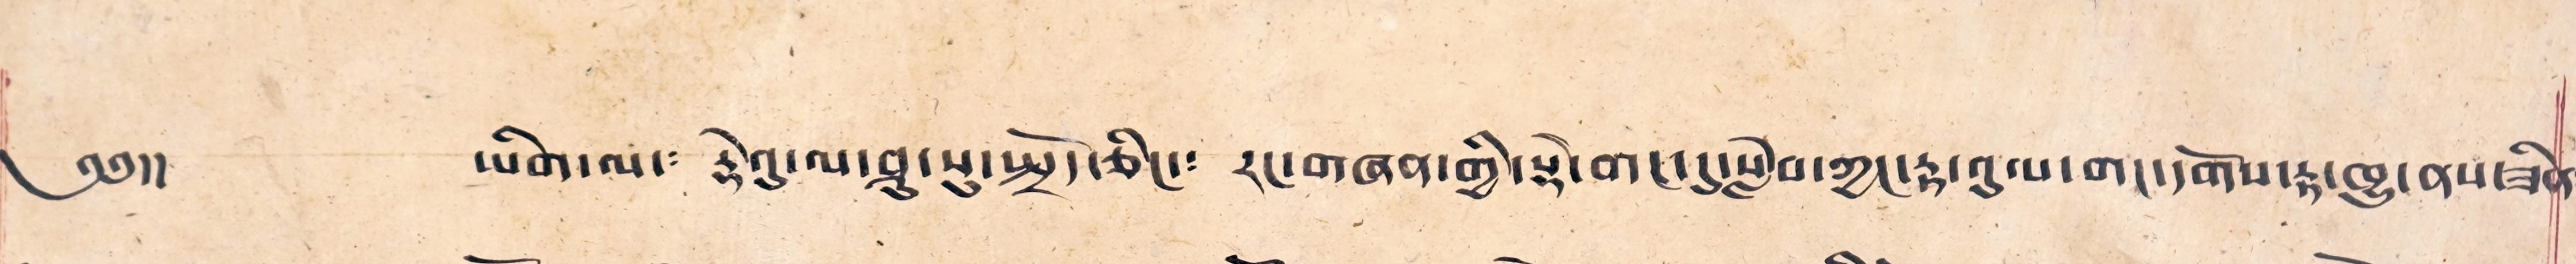༄༅།། ཡིག་ལ་༴ རྡེའུ་ལ་ཤུ་སུ་སྤྲོད་ཅིང་༴ རང་གཞན་གྱི་སྡེ་གང་དུ་སླེབ་ཀྱང་རྟ་འུལ་གང་དགོས་རྟ་ཁྱུ་ནས་ཟིན༴
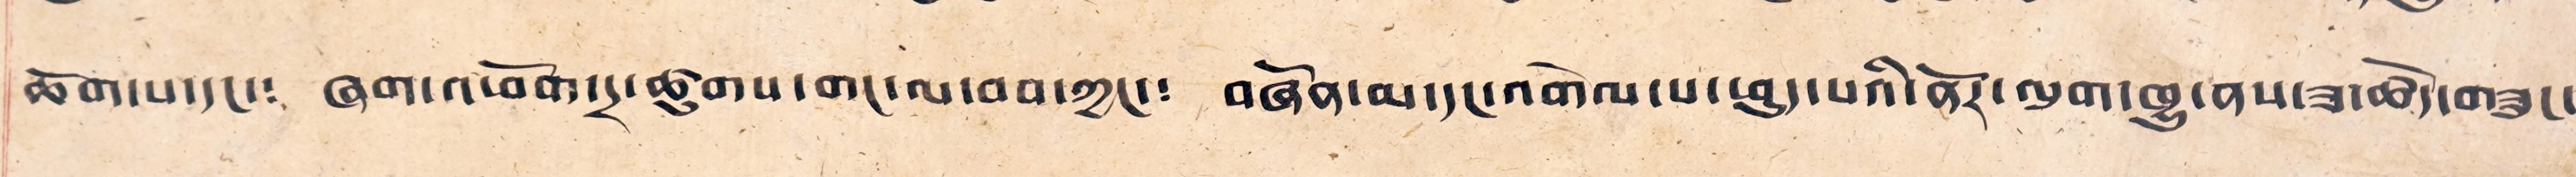ཆོག་པ་དང་༴ ཞག་འཕོག་དྲ་ཚུགས་གང་ལ་བབ་ཀྱང་༴ བཞོན་མ་དང་འགེལ་པ་ཕུད་པའི་ནོར་ལུག་ཁྱུ་ནས་ཟ་ཆོད་བཟུང་
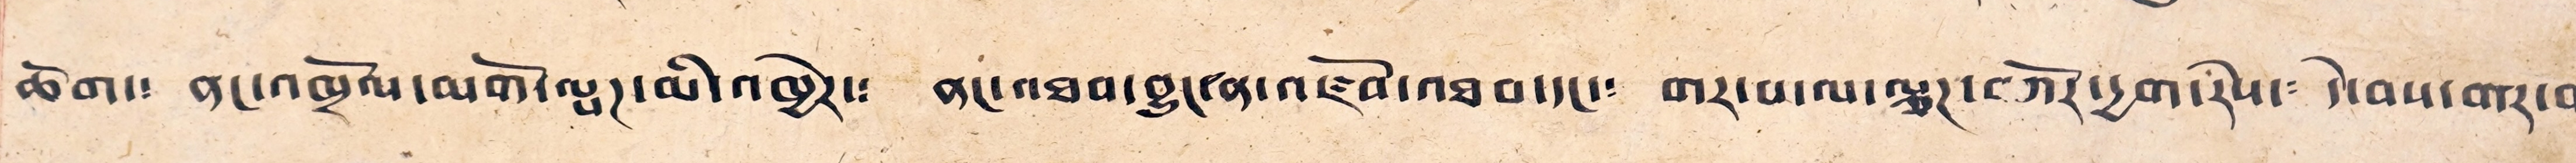ཆོག་༴ ནང་འཁྲོལ་མགོ་ལྤཊ་མི་འཁྱེར་༴ ནང་འཐབ་བྱུང་ན་འཛོབ་འཐབ་དང་༴ གར་པ་ལ་ལྕཊ་བཀོར་དྱག་རེས་༴ དེ་བས་གར་བ༴
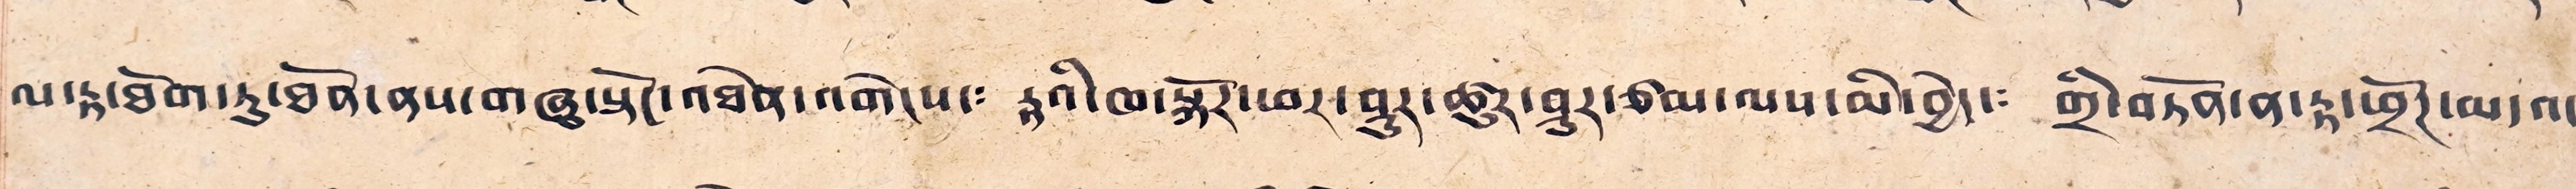ལ་རྟ་ཐོག་ཏུ་ཐོན་ནས་གཞུ་སྟོང་འཐེན་འགེངས་༴ རྟའི་ཁ་སྐོར་ཕར་ཤུར་ཚུར་ཤུར་ཙམ་ལས་མི་བྱེད་༴ གྲི་བཏོན་ན་རྟ་ཕྲོཊ་མདའ་
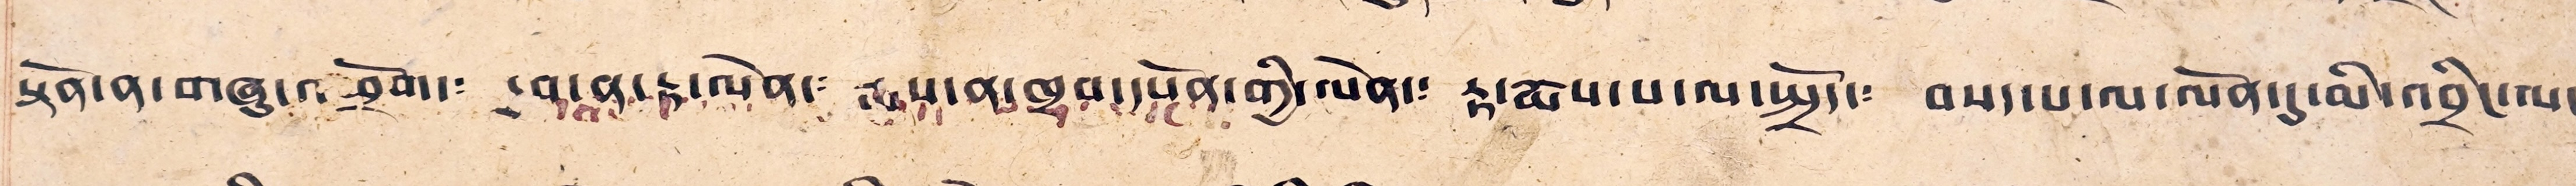སྟོན་ན་གཞུ་འཕྲོག་༴ དྱབ་ན་རྟ་ལེན་༴ རྨས་ན་ཁྲབ་དཔོན་གྱི་ལེན་༴ རྟ་རྨས་པ་ལ་སྤྲོད་༴ བསད་པ་ལ་ལོན་དུ་མི་འབྲིང་ལ་
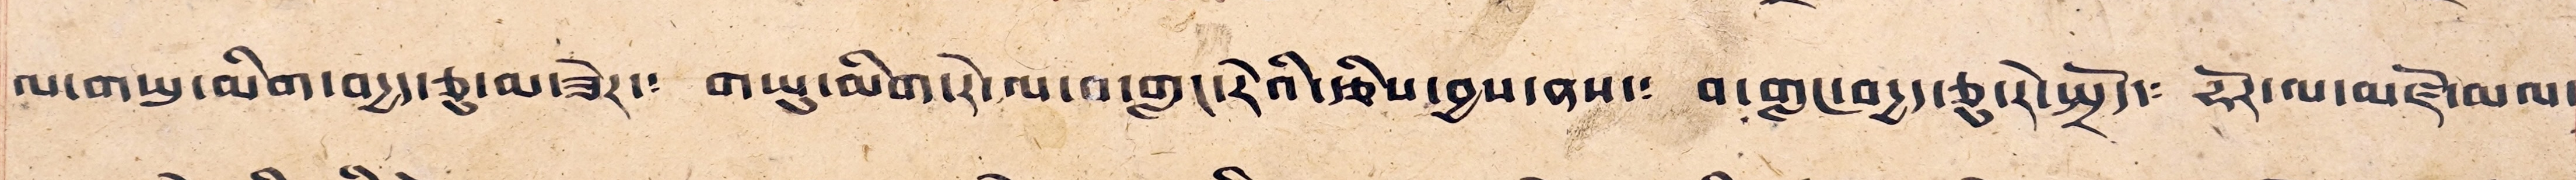ལ་གཡུ་མིག་བདྱད་ཅུ་མ་ཟེར་༴ གཡུ་མིག་རེ་ལ་བ་གླང་རེའི་རྩིས་བྱས་ནས་༴ བ་གླང་བདྱད་ཅུ་རེ་སྤྲོད་༴ ཧོར་ལ་མཛོ་མལ་
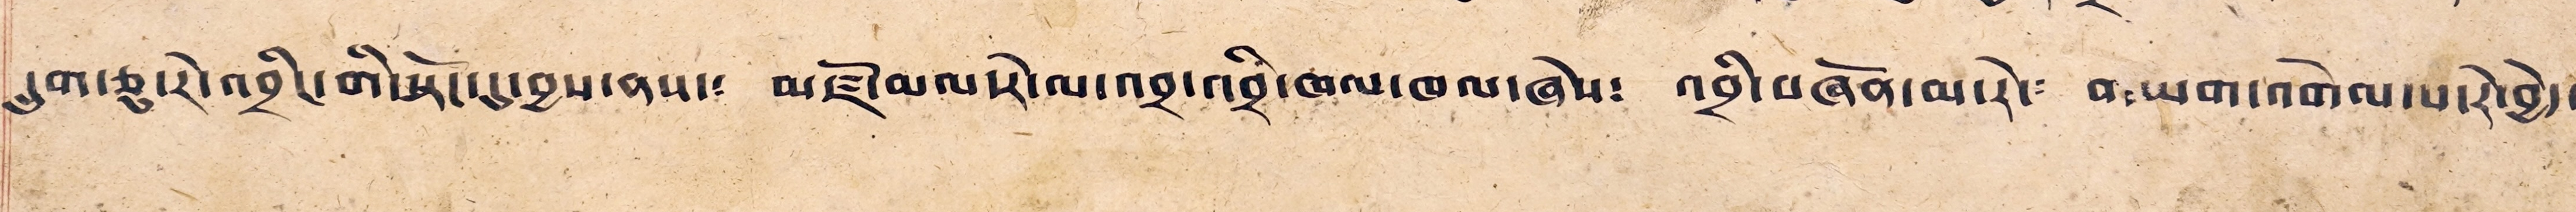དྲུག་ཅུ་རེ་འབྲིང་གི་སྟོང་དུ་བྱས་ནས་༴ མཛོ་མལ་རེ་ལ་འབྲ་འབྲི་ཆལ་ཁལ་ཞེས་༴ འབྲི་བཞོན་མ་རེ་༴ གཡག་འགེལ་པ་རེ་བྱེད་
